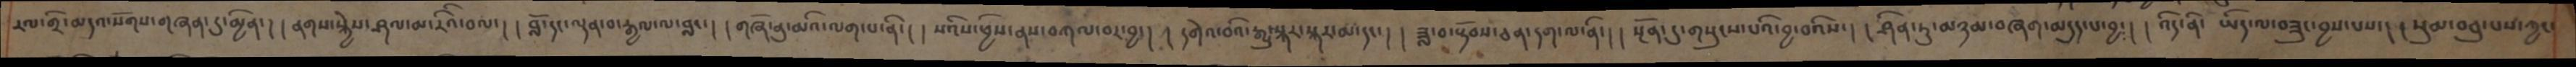རལ་གྲི་མདའ་སོགས་གཞན་དུ་མྱིན་། །ནགས་སྐྱེས་ཤལ་མ་རིའི་བལ་། །བློ་དང་ལྡན་བ་རྒྱལ་ལ་བླང་། །གཞོ་ནུ་མའི་ལག་པ་ནི་། །སའིས་ཕྱིས་ནས་བཀལ་བར་བྱ་་། །དགེའ་བའི་རྒྱུ་སྐར་སྐར་མ་དང་། །ཟླ་བ་སྟོབས་ཅན་དག་ལ་ནི་། །སྔོན་དུ་གསུངས་པའི་བྱ་བའིས་། །ཤིན་ཏུ་མཉམ་བཞག་མདུད་པ་བྱ་། །འདི་ ནི་ཡིད་ལ་བཟུང་བྱས་པས་། །སུམ་བཅུ་པས་ཀྱང་
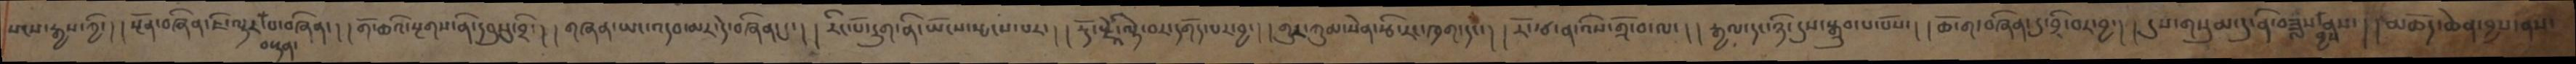སངས་རྒྱས་ཀྱི་། །སྔོན་བཞིན་ཇི་ལྟར་བསྟན་པ་བཞིན་། །གོ་ཆའི་སྔགས་ནི་དབུསུ་བྲི་། །གཞན་ཡང་འདབ་མར་དེ་བཞིན་དུ་། །རིང་པོ་དྲུག་ནི་ཡོངས་སྤངས་པར་། །རྡོ་རྗེའི་ལྟེ་བར་དགོད་པར་བྱ་། །གུར་ཀུམ་སེན་རྩི་རང་ཁྲག་དང་། །རོ་ཙ་ན་འིས་གྲོ་བ་ལ་། །རྒྱལ་དང་ཉི་དུས་སྒྲུབ་པ་པོས་། །ཆོ་ག་བཞིན་དུ་བྲི་བར་བྱ་། །དུས་གསུམ་དུ་ནི་བཟླས་བྱས་ནས་། །མཆོད་ཆེན་བྱས་ནས་
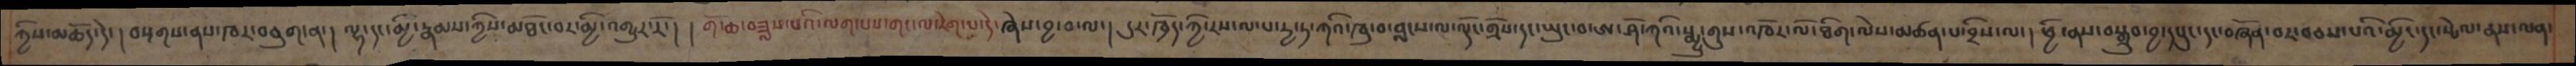ཀྱིས་མཆོད་དེ་། བསྔགས་ནས་ཁར་བཅུག་ན་། ལྷ་དང་མྱི་རྣམས་ཀྱིས་མཐོང་བར་མྱི་འགྱུར་རོ་། གོ་ཆ་བཟླས་པའི་ལག་པས་གང་ལ་རེག་པ་དེ་ཞེས་བྱ་བ་ལ་། དུར་ཁྲོད་ཀྱི་རས་ལ་པ་ཏྱ་ཏ་ཀའི་ཁུ་བ་བླངས་ལ་ལྡོང་གྲོས་དང་ཡུང་བ་ཨ་ཤོ་ཀའི་སྨྱུ་གུས་འཁོར་ལོ་ཐིག་ལེས་མཚན་པ་བྲིས་ལ་། ཕྱི་ནས་བསྒྲུབ་བྱ་དཔུང་དང་བཞོན་བར་བཅས་པའི་མྱིང་དང་སྤེལ་ནས་ལན་
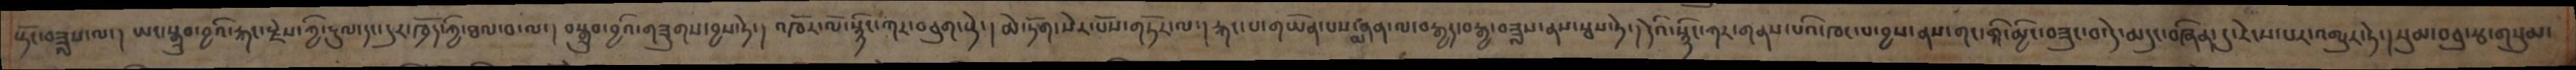སྟོང་བཟླས་ལ་། ཡང་སྒྲུབ་བྱའི་རྐང་རྗེས་ཀྱི་རྡུལ་དང་དུར་ཁྲོད་ཀྱི་ཐལ་བ་ལ་། བསྒྲུབ་བྱའི་གཟུགས་བྱས་ཏེ་། འཁོར་ལོ་སྙིང་ཀར་བཅུག་སྟེ་། མེ་ཏོག་སེར་པོས་གཏོར་ལ་། རྐང་པ་གཡོན་པས་མནན་ལ་བརྒྱད་བརྒྱ་བཟླས་ནས་སྦས་ཏེ་། དེའི་སྙིང་ཀར་གནས་པའི་ཁང་པ་བྱས་ནས་གང་གའི་མྱིང་བཟང་བ་དེ་མདུང་བཞིན་དུ་རེངས་པར་འགྱུར་ཏེ་། སུམ་ཅུ་རྩ་གསུམ་
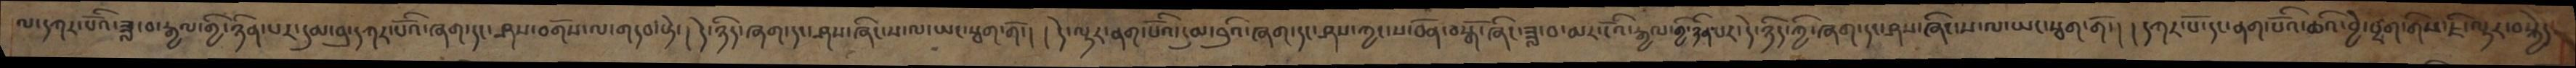ལ་དཀར་པོའི་ཟླ་བ་རྒྱལ་གྱི་ཉིན་པར་དུམ་བུ་དཀར་པོའི་ཞག་དང་ཤས་བགོས་ལ་གདབ་སྟེ་། དེ་ཉིད་ཞག་དང་ཤས་ཞིང་ས་ལ་ཡང་སྦག་གོ་། དེ་ལྟར་ནག་་པོའི་དུམ་བུའི་ཞག་དང་ཤས་ཀྱང་ས་བོན་བསྒོ་ཞིང་ཟླ་བ་མར་ངོའི་རྒྱལ་གྱི་ཉིན་པར་དེ་ཉིད་ཀྱི་ཞག་དང་ཤས་ཞིང་ས་ལ་ཡང་སྦག་གོ་། །དཀར་པོ་དང་ནག་པོའི་ཆའི་བྱེ་བྲག་གིས་ཇི་ལྟར་བསྐྱེད་
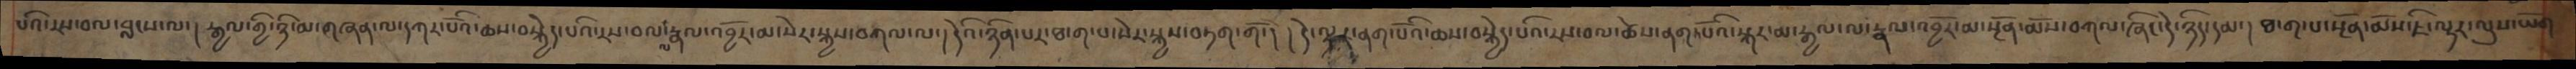པའི་རས་བལ་བླངས་ལ་། རྒྱལ་གྱི་ཉི་མ་གཞན་ལ་དཀར་པོའི་ཆས་བསྐྱོད་པའི་རས་བལ་ལ་རྣལ་འབྱོར་མ་སེར་སྐྱས་བཀལ་ལ་། དེའི་ཉིན་པར་ཐ་ག་པ་སེར་སྐྱས་བཏག་གོ་། །དེ་ལྟར་ནག་པོའི་ཆས་བསྐྱེད་པའི་རས་བལ་ཚེས་ནག་པོའི་སྐར་མ་རྒྱལ་ལ་རྣལ་འབྱོར་མ་སྔོན་མོས་བཀལ་ཞིང་དེ་ཉིད་དམ་། ཐ་ག་པ་སྔོན་མོས་ཇི་ལྟར་ལུས་ཡོག
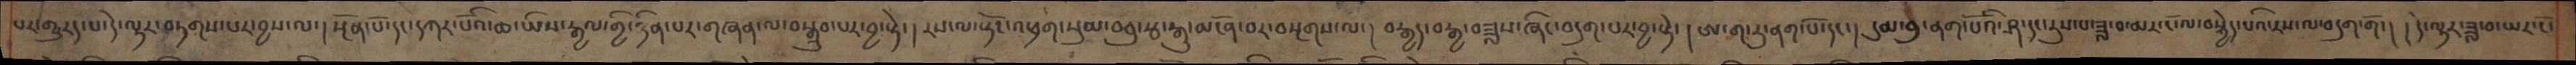པར་གྱུརད་པ་དེ་ལྟར་བཏགས་པར་བྱས་ལ་། སྔོན་པོ་དང་དཀར་པོའི་ཆ་ཡིས་རྒྱལ་གྱི་ཉིན་པར་གཞན་ལ་བསྒྲུབ་པར་བྱ་སྟེ་། རས་ལ་སྟོང་ཕྲག་སུམ་བཅུ་སྩ་རྒུ་མངོན་པར་བསྔགས་ལ་། བརྒྱད་བརྒྱ་བཟླས་ཞིང་བདུག་པར་བྱ་སྟེ་། ཨ་ག་ར་ནག་པོ་དང་། དུམ་བུ་ནག་པོའི་ཤ་དང་རུས་པ་ཟླ་བ་མར་ངོ་ལ་བསྐྱེད་པའི་རས་ལ་བདུག་གོ་། དེ་ལྟར་ཟླ་བ་ཡར་ངོ་
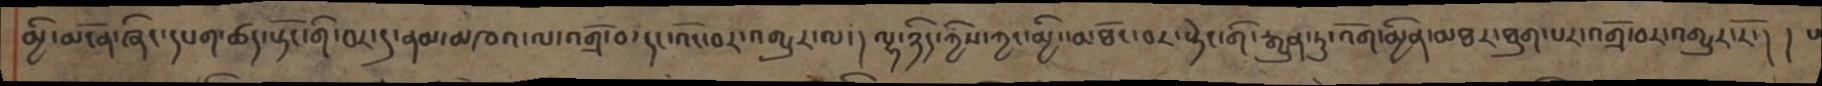མྱི་མངོན་ཞིང་དཔག་ཚད་སྟོང་གི་བར་དུ་ནམ་མཁའ་ལ་འགྲོ་བ་དང་འོང་བར་འགྱུར་ལ་། ལྷ་ཉིད་ཀྱིས་ཀྱང་མྱི་མཐོང་བར་སྟེང་གི་རྒྱུན་ཏུ་འོག་མྱིན་མཐར་ཐུག་པར་འགྲོ་བར་འགྱུར་རོ་། །པ
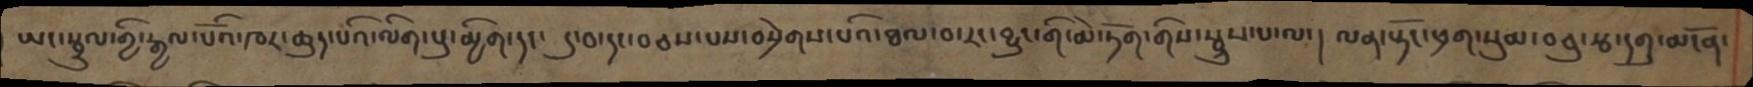ཡང་སྦྲུལ་གྱི་རྒྱལ་པོའི་ཁར་ཆུད་པའི་ལིག་པུ་མྱིག་དང་ དུ་བ་དང་བཅས་པས་བསྲེགས་པའི་ཐལ་བ་རང་བྱུང་གི་མེ་ཏོག་གིས་སྦྲུས་པ་ལ་། ལན་སྟོང་ཕྲག་སུམ་བཅུ་རྩ་དགུ་མངོན་
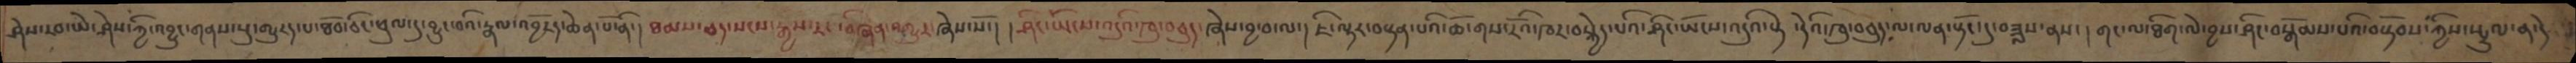ཤེས་རབ་ཡེ་ཤེས་ཀྱི་འབྱུང་གནས་སུ་གྱུརད་པ་ཐོབ་ཅིང་ཕུལ་དུ་བྱུང་བའི་རྣལ་འབྱོརད་ཆེན་པོ་ནི་། ཐམས་ཅད་སངས་རྒྱས་རང་བཞིན་འགྱུར་ཞེས་སོ་། །ཤིང་ཡོངས་འདུའི་ཁུ་བཅུད་ཞེས་བྱ་བ་ལ་།ཇི་ལྟར་བསྟན་པའི་ཆོ་གས་རོའི་ཁར་བསྐྱེད་པའི་ཤིང་ཡོངས་འདུའ་སྟེ ་།དེའི་ཁུ་བཅུད་ལ་ལན་སྟོང་དུ་བཟླས་ནས་།གང་ལ་ཐིག་ལེ་བྱས་ཤིང་བསྒོམས་པའི་་བསྟོབས་ཀྱིས་སྤྲུལ་ན་དེ
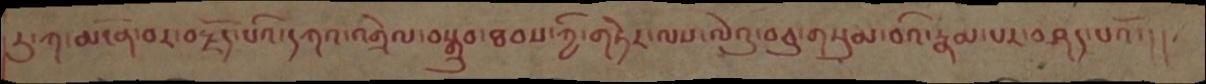རུ་ཀ་མངོན་བར་བརྫོད་པའི་དཀའ་འགྲེལ་བསྒྲུབ་ཐབས་ཀྱི་གཏེར་ལས་ལེའུ་བཅུ་གསུམ་བའི་རྣམ་པར་བཤད་པའོ་།།
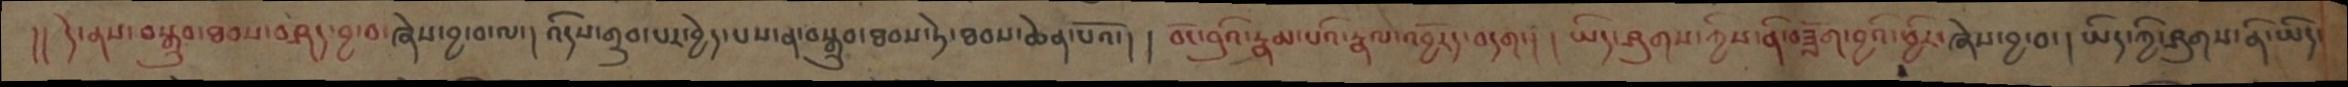།།དེ་ནས་བསྒྲུབ་ཐབས་བཤད་བྱ་བ་ཞེས་བྱ་བ་ལ་། འདིས་གྲུབ་པར་བྱེད་པས་ན་བསྒྲུབ་ཐབས་ཏེ་ཐབས་ཆེན་པའོ་། །བོང་བུའི་རྣམ་པའི་རྣལ་འབྱོརད་བདག་། །ཡིད་ཤུགས་ཀྱིས་ནི་བཟློག་བྱའི་ཕྱིར་ཞེས་བྱ་བ་།ཡིད་ཀྱི་ཤུགས་ནི་ཡིད་
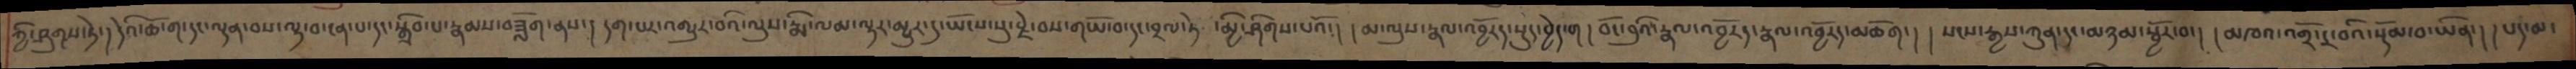ཀྱི་ཤུགས་ཏེ་། དེའི་ཆོ་ག་དང་ལྡན་བས་ལྟ་བ་ངན་པ་དང་སྒྲིབ་པ་རྣམས་བཟློག་ནས་། དག་པར་འགྱུར་བའི་ལུས་རྨི་ལམ་ལྟར་མྱུར་དུ་ཡོངས་སུ་རྗེ་བས་གཡོ་བ་དང་བྲལ་ཏེ  ་མྱི་ཤིགས་པའོ་། །མ་ལུས་རྣལ་འབྱོརད་སྡུད་བྱེད་པ། །བོང་བུའི་རྣལ་འབྱོརད་རྣལ་འབྱོརད་མཆོག་། །སངས་རྒྱས་ཀུན་དང་མཉམ་སྦྱོར་བ་། །མཁའ་འགྲོ་དྲ་བའི་སྡོམ་བ་ཡིན་། །པད་མ་
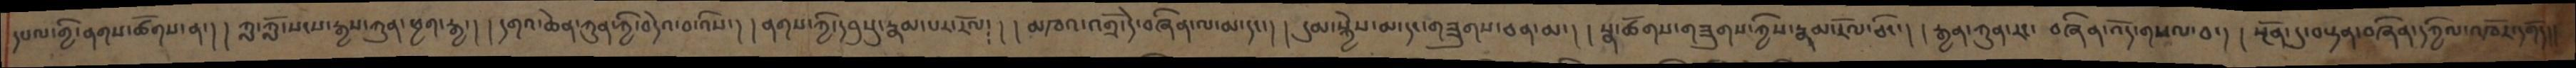དཔལ་གྱི་ནགས་ཚོགས་ན་། །ཀླ་ཀློ་སངས་རྒྱས་ཀུན་ཕྱག་རྒྱ་། །དགའ་ཆེན་ཀུན་ཀྱི་བདེའ་བ་འིས་། །ནགས་ཀྱི་དབུསུ་རྣམ་པར་རོལ་། །མཁའ་འགྲོ་དེ་བཞིན་ལ་མ་དང་། །དུམ་སྐྱེས་མ་དང་གཟུགས་ཅན་མ་། །སྣ་ཚོགས་གཟུགས་ཀྱིས་རྣམ་རོལ་ཅིང་། །རྒྱན་ཀུན་རང་བཞིན་འོད་གསལ་བ་། །སྔོན་དུ་བསྟན་བཞིན་དཀྱིལ་འཁོར་དགོད་།
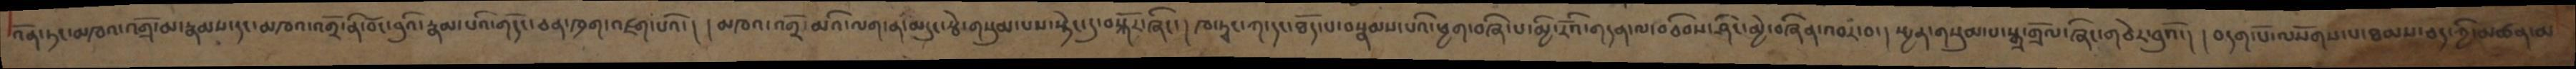འོན་ཏང་མཁའ་འགྲོ་མ་རྣམས་དང་མཁའ་འགྲོ་ནི་བོང་བུའི་རྣམ་པའི་གདོང་ཅན་ཁྲག་འཛག་པའོ་། །མཁའ་འགྲོ་མའི་ལག་ན་མདུང་རྩེ་གསུམ་པས་སྟེང་དུ་བསྐོར་ཞིང་། ཁ་ཏྭང་ཀ་དང་ཐོད་པ་བསྣམས་པའི་ཕྱག་བཞི་པ་མྱི་རོའི་གདན་ལ་བཅིབས་ཤིང་མྱེ་བཞིན་འབར་བ་།སྤྱན་གསུམ་པ་སྒྲ་གྲོལ་ཞིང་གཅེར་བུའོ་། །བདག་པོ་ལསོགས་པ་ཐམས་ཅད་ཀྱི་མཚན་མ་།
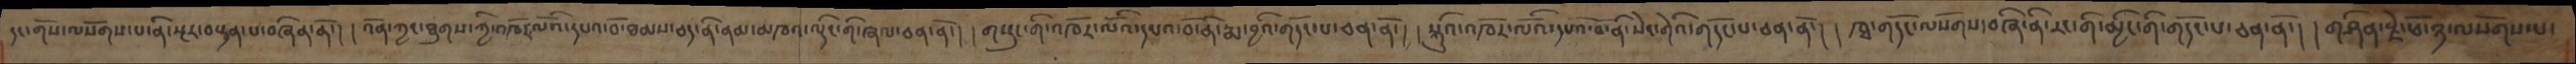དང་གོས་ལསོགས་པ་ནི་སྔར་བསྟན་པ་བཞིན་ནོ་། །འོན་ཀྱང་ཐུགས་ཀྱི་འཁོར་ལོའི་དཔའ་བོ་ཐམས་ཅད་ནི་ནམ་མཁའ་ལྡིང་གི་ཞལ་ཅན་ནོ་། །གསུང་གི་འཁོར་ལོའི་དཔའ་བོ་ནི་རྨ་བྱའི་གདོང་པ་ཅན་ནོ་། །སྐུའི་འཁོར་ལོའི་དཔའ་བོ་ནི་སེང་གེའི་གདོང་པ་ཅན་ནོ་། །ཁྭ་གདོང་ལསོགས་བཞི་ནི་རང་གི་མྱིང་གི་གདོང་པ་ཅན་ནོ་། །གཤིན་རྗེ་ཕོ་ཉ་ལསོགས་པ་
